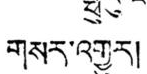གསར་འགྱུར།
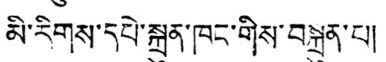མི་རིགས་དཔེ་སྐྲུན་ཁང་གིས་བསྐྲུན་པ།
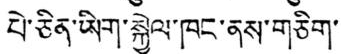པེ་ཅིན་ཡིག་སྐྱེལ་ཁང་ནས་གཅིག་
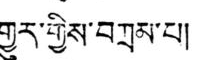གྱུར་གྱིས་བཀྲམ་པ།
